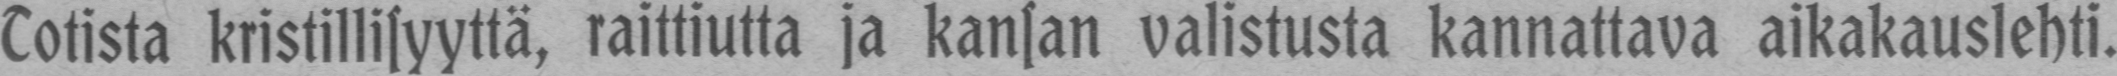Totista kristillisyyttä, raittiutta ja kansan valistusta kannattava aikakauslehti.
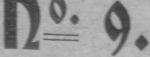No. 9.
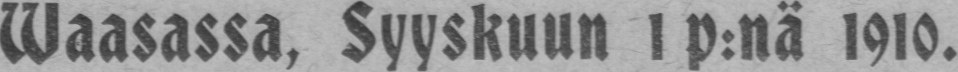Waasassa, Syyskuun 1 p:nä 1910.
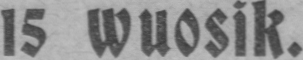15 wuosik.
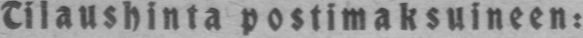Tilaushinta postimaksuineen:
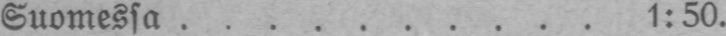Suomessa 1:50.
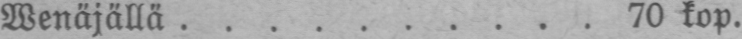Wenäjällä 70 kop.
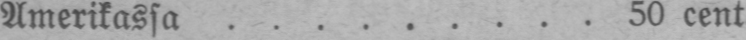Amerikassa 50 cent.
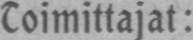Toimittajat:
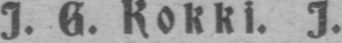J. G. Kokki. J. Andersson.
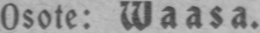Osote: Waasa.
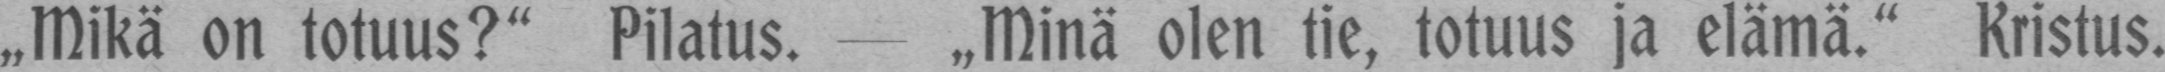„Mikä on totuus?" Pilatus. — „Minä olen tie, totuus ja elämä." Kristus.
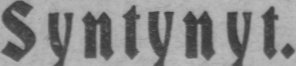Syntynyt.
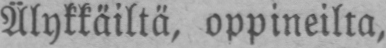Älykkäiltä, oppineilta,
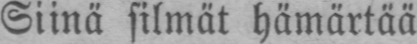Siinä silmät hämärtää.
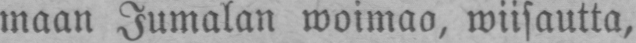maan Jumalan woimao, wiisautta,
